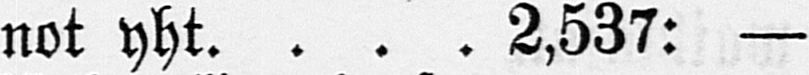not yht. 2,537: —
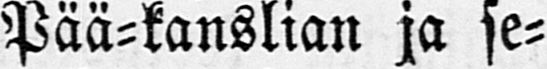Pää-kanslian ja se-
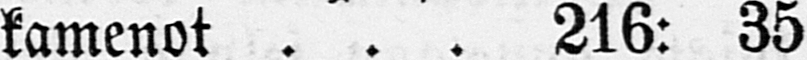kamenot 216: 35
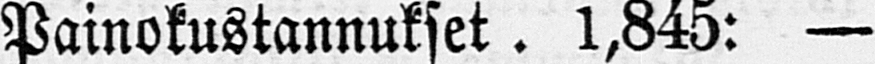Painokustannukset. 1,845: —
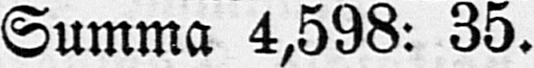Summa 4,598: 35.
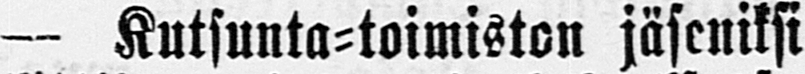— Kutsunta-toimiston jäseniksi
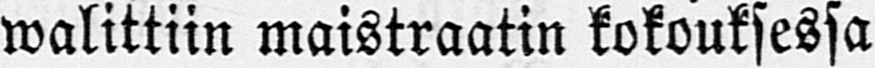walittiin maistraatin kokouksessa
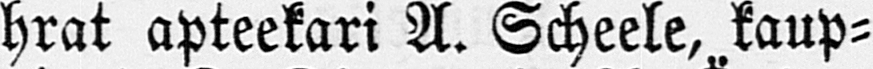hrat apteekari A. Scheele, kaup-
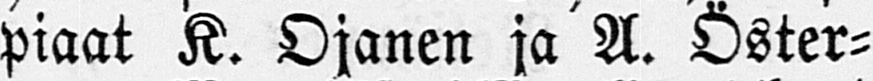piaat K. Ojanen ja A. Öster-
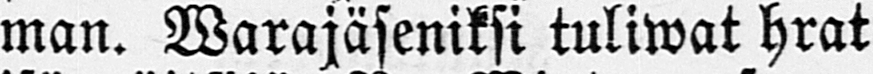man. Warajäseniksi tuliwat hrat
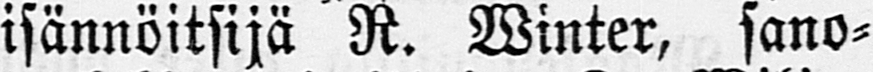isännöitsijä R. Winter, sano-
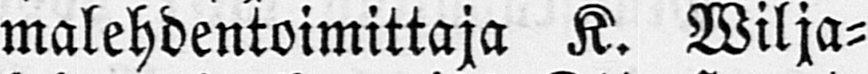malehdentoimittaja K. Wilja-
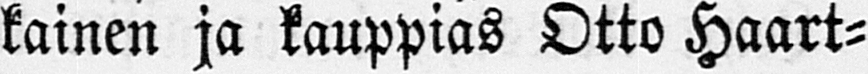kainen ja kauppias Otto Haart-
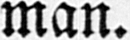man.
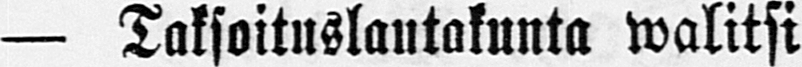— Taksoituslautakunta walitsi
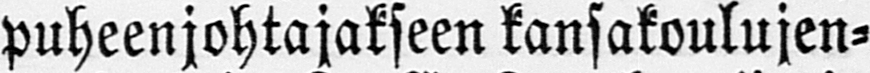puheenjohtajakseen kansakoulu jen-
